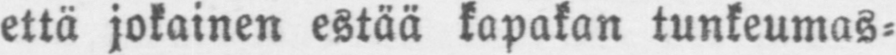että jokainen estää kapakan tunkeumas-
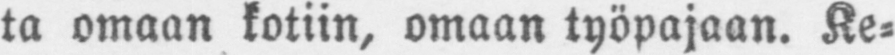ta omaan kotiin, omaan työpajaan. Ke-
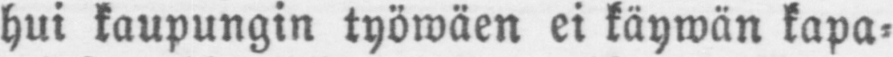hui kaupungin työwäen ei käywän kapa-
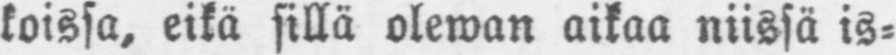koissa, eikä sillä olewan aikaa niissä is-
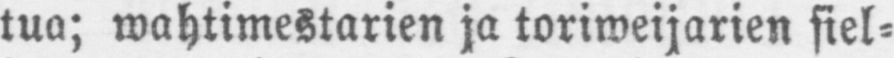tua; wahtimestarien ja toriweijarien siel-
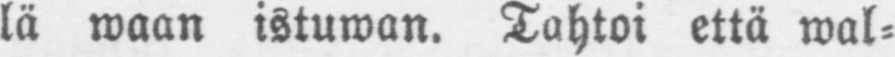lä waan istuwan. Tahtoi että wal-
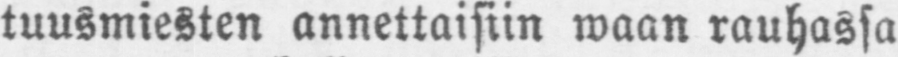tuusmiesten annettaisiin waan rauhassa
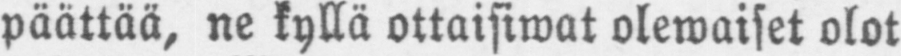päättää, ne kyllä ottaisiwat olewaiset olot
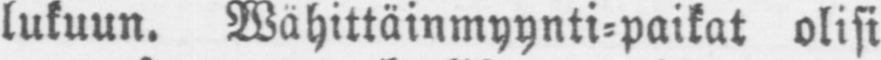lukuun. Wähittäinmyynti-paikat olisi
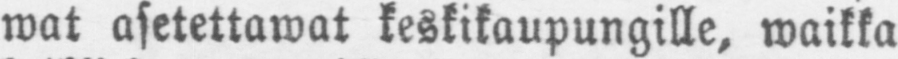wat asetettawat keskikaupungille, waikka
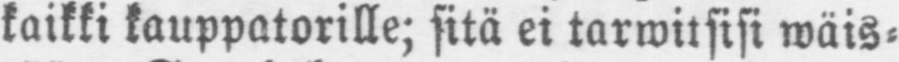kaikki kauppatorille; sitä ei tarwitsisi wäis-
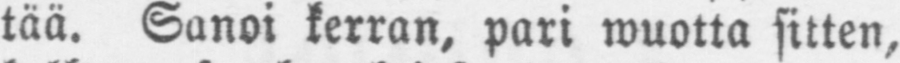tää. Sanoi kerran, pari wuotta sitten,
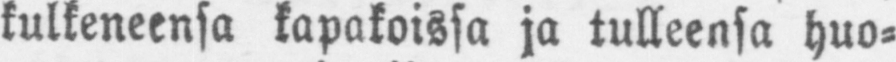kulkeneensa kapakoissa ja tulleensa huo-
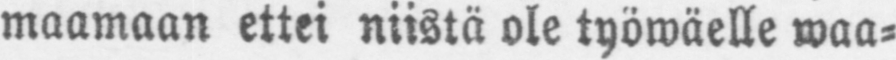maamaan ettei niistä ole työwäelle waa-
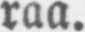raa.
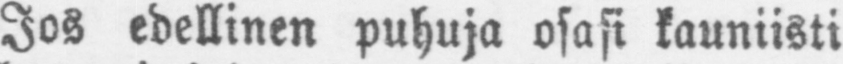Jos edellinen puhuja osasi kauniisti
